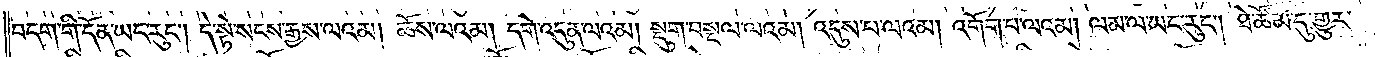བདག་གི་དོན་ཡང་རུང༌། དེ་སྟེ་སངས་རྒྱས་ལའམ། ཆོས་ལའམ། དགེ་འདུན་ལའམ། སྡུག་བསྔལ་ལའམ། འདུས་པ་ལའམ། འགོག་པ་ལའམ། ལམ་ལ་ཡང་རུང༌། ཐེ་ཚོམ་དུ་གྱུར་
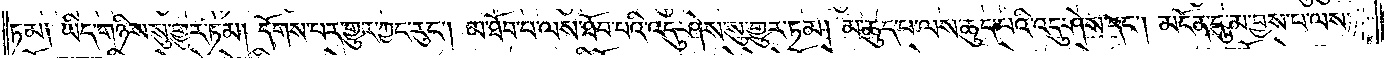ཏམ། ཡིད་གཉིས་སུ་གྱུར་ཏམ། དོགས་པར་གྱུར་ཀྱང་རུང༌། མ་ཐོབ་པ་ལས་ཐོབ་པའི་འདུ་ཤེས་སུ་གྱུར་ཏམ། མ་ཆུད་པ་ལས་ཆུད་པའི་འདུ་ཤེས་དང༌། མངོན་དུ་མ་བྱས་པ་ལས་
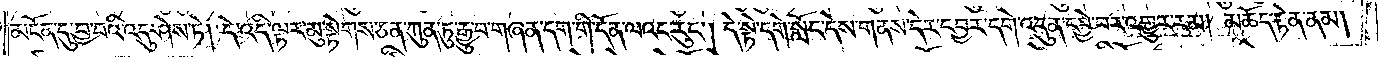མངོན་དུ་བྱ་བའི་འདུ་ཤེས་ཏེ། དེ་འདི་ལྟར་མུ་སྟེགས་ཅན་ཀུན་ཏུ་རྒྱུ་བ་གཞན་དག་གི་དོན་ལའང་རུང༌། དེ་སྟེ་དགེ་སློང་དེས་གནས་དེར་དབྱར་དགེ་འདུན་དབྱེ་བར་འགྱུར་རམ། མཆོད་རྟེན་ནམ།
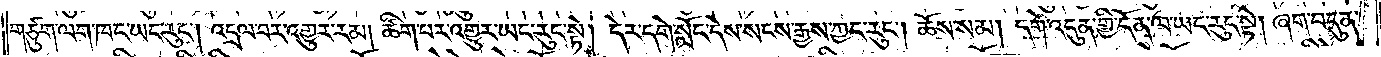གཙུག་ལག་ཁང་ཡང་རུང༌། འདྲལ་བར་འགྱུར་རམ། ཚིག་པར་འགྱུར་ཡང་རུང་སྟེ། དེར་དགེ་སློང་དེས་སངས་རྒྱས་ཀྱང་རུང༌། ཆོས་སམ། དགེ་འདུན་གྱི་དོན་ལ་ཡང་རུང་སྟེ། ཞག་བདུན་
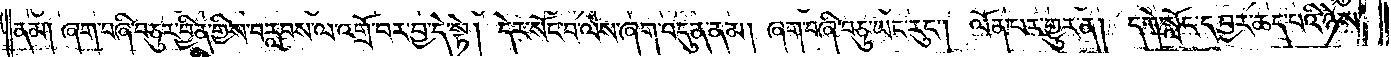ནམ། ཞག་བཞི་བཅུར་བྱིན་གྱིས་བརླབས་ལ་འགྲོ་བར་བྱ་དེ་སྟེ། དེར་སོང་བ་ལས་ཞག་བདུན་ནམ། ཞག་བཞི་བཅུ་ཡང་རུང༌། ལོན་པར་གྱུར་ན། དགེ་སློང་དབྱར་ཆད་པའི་ཉེས་
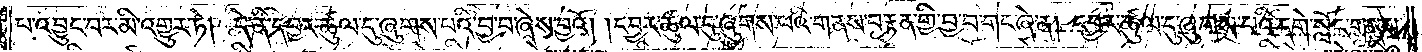པ་འབྱུང་བར་མི་འགྱུར་ཏེ། དེ་ནི་དབར་ཚུལ་དུ་ཞུགས་པའི་བྱ་བ་ཞེས་བྱའོ། །དབྱར་ཚུལ་དུ་ཞུགས་པའི་གནས་བརྟན་གྱི་བྱ་བ་གང་ཞེ་ན། དབྱར་ཚུལ་དུ་ཞུགས་པའི་དགེ་སློང་གནས་
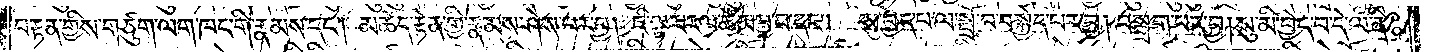བརྟན་གྱིས་གཙུག་ལག་ཁང་གི་རྣམས་དང༌། མཆོད་རྟེན་གྱི་རྣམས་ཤེས་པར་བྱ། ཇི་ལྟར་རལ་ཚེམ་བྱ་བ་དང༌། སུ་བྱེད་པ་ལ་སྤྲོ་བ་བསྐྱེད་པར་བྱ། བསྒྲག་པར་བྱ། སུ་མི་བྱེད་པ་དེ་ལ་ནི་
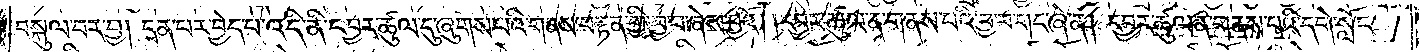བསྐུལ་བར་བྱ། དྲན་པར་བྱེད་པ་འདི་ནི་དབྱར་ཚུལ་དུ་ཞུགས་པའི་གནས་བརྟན་གྱི་བྱ་བ་ཞེས་བྱའོ། །དབྱར་ཚུལ་ན་གནས་པའི་བྱ་བ་གང་ཞེ་ན། དབྱར་ཚུལ་ན་གནས་པའི་དགེ་སློང་
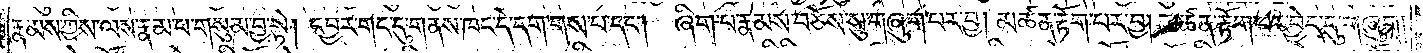རྣམས་ཀྱིས་ལས་རྣམ་པ་གསུམ་བྱ་སྟེ། དབྱར་གང་དུ་གནས་ཁང་དེ་དག་གས་པ་དང༌། ཞིག་པ་རྣམས་བཅོས་སུ་གཞུག་པར་བྱ། མཚན་རྟོག་པར་བྱ། མཚན་རྟོག་པར་བྱེད་དུ་གཞུག།
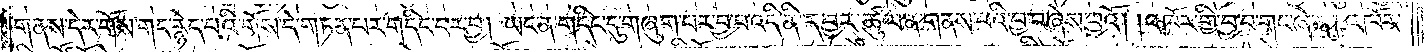གནས་དེར་གོས་གང་རྙེད་པའི་གོས་དེ་གཏན་པར་གདིང་བར་བྱ། ཡང་ན་གདིང་དུ་གཞུག་པར་བྱ་བ་འདི་ནི་དབྱར་ཚུལ་ན་གནས་པའི་བྱ་བ་ཞེས་བྱའོ། །འཁོར་གྱི་བྱ་བ་གང་ཞེ་ན། འཁོར་
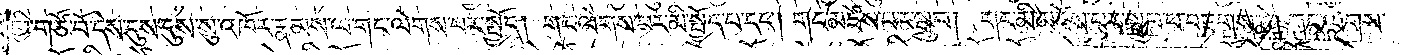གྱི་གཙོ་བོ་དེས་དུས་དུས་སུ་འཁོར་རྣམས་ལ་གང་ལེགས་པར་སྤྱོད། གང་ལེགས་པར་མི་སྤྱོད་པ་དང༌། གང་མཛེས་པར་སྒྲུབ། གང་མི་མཛེས་པར་སྒྲུབ་པ་བརྟགས་ཏེ། གང་ལེགས་
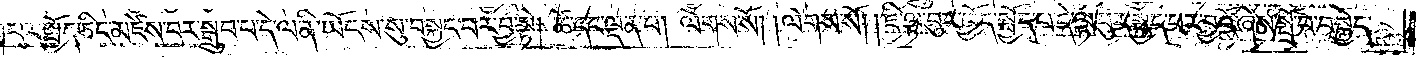པར་སྤྱོད་ཅིང་མཛེས་པར་སྒྲུབ་པ་དེ་ལ་ནི་ཡོངས་སུ་བསྐྱང་བར་བྱ་སྟེ། ཚེ་དང་ལྡན་པ། ལེགས་སོ། །ལེགས་སོ། །ཇི་ལྟ་བུར་ཁྱོད་སྤྱོད་པ་དེ་ལྟ་བུར་སྤྱད་པར་བྱའོ་ཞེས་སྤྲོ་བ་བསྐྱེད་
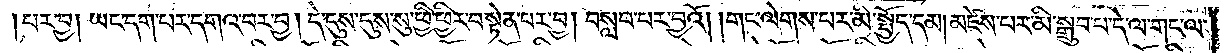པར་བྱ། ཡང་དག་པར་དགའ་བར་བྱ། དེ་དུས་དུས་སུ་ཕྱི་ཕྱིར་བསྟེན་པར་བྱ། བསླབ་པར་བྱའོ། །གང་ལེགས་པར་མི་སྤྱོད་དམ། མཛེས་པར་མི་སྒྲུབ་པ་དེ་ལ་གང་ལ་
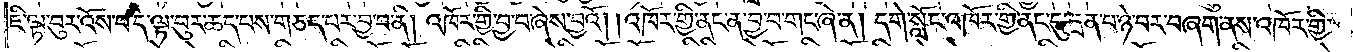ཇི་ལྟ་བུར་འོས་པ་དེ་ལྟ་བུར་ཆད་པས་གཅད་པར་བྱ་བ་ནི། འཁོར་གྱི་བྱ་བ་ཞེས་བྱའོ། །འཁོར་གྱི་ནང་ན་བྱ་བ་གང་ཞེ་ན། དགེ་སློང་འཁོར་གྱི་ནང་དུ་དྲན་པ་ཉེ་བར་བཞག་ནས་འཁོར་གྱི་
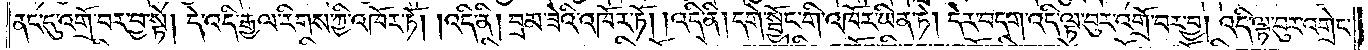ནང་དུ་འགྲོ་བར་བྱ་སྟེ། དེ་འདི་རྒྱལ་རིགས་ཀྱི་འཁོར་ཏོ། །འདི་ནི། བྲམ་ཟེའི་འཁོར་ཏོ། །འདི་ནི། དགེ་སྦྱོང་གི་འཁོར་ཡིན་ཏེ། དེར་བདག་འདི་ལྟ་བུར་འགྲོ་བར་བྱ། འདི་ལྟ་བུར་འགྲེང་
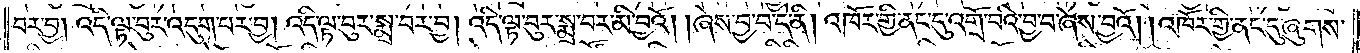བར་བྱ། འདི་ལྟ་བུར་འདུག་པར་བྱ། འདི་ལྟ་བུར་སྨྲ་བར་བྱ། འདི་ལྟ་བུར་སྨྲ་བར་མི་བྱའོ། །ཞེས་བྱ་བ་དེ་ནི། འཁོར་གྱི་ནང་དུ་འགྲོ་བའི་བྱ་བ་ཞེས་བྱའོ། །འཁོར་གྱི་ནང་དུ་ཞུགས་
